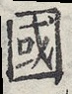國
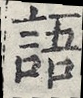語
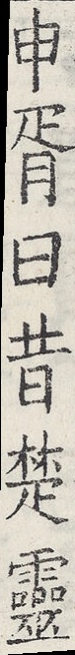申胥曰昔楚靈
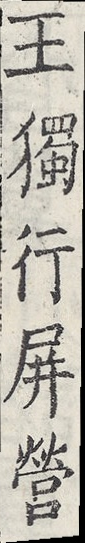王獨行屏營
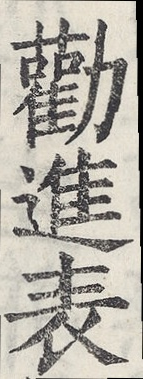勸進表
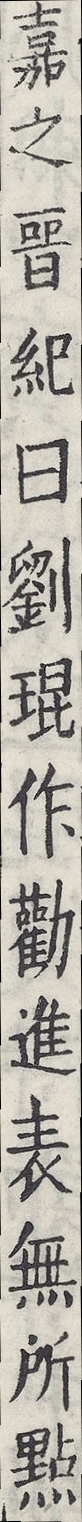嘉之晉紀曰劉琨作勸進表無所點
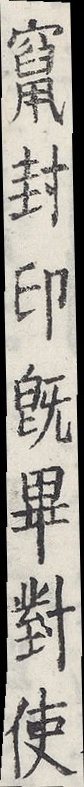竄封印既畢對使
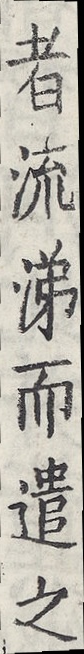者流涕而遣之
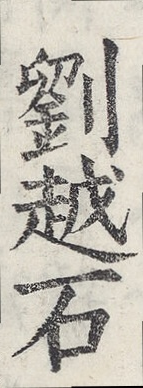劉越石
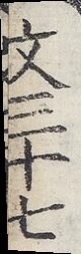文三十七
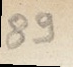89
